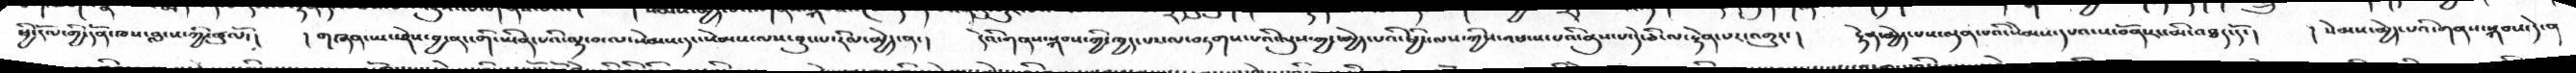ཕྱི་རོལ་གྱི་དོན་ཁས་བླངས་ཀྱི་ཚུལོ་།  །གཞན་ཡང་ཤེས་བྱ་ནང་གི་ཡིན་པའི་ལྟ་བ་ལ་སེམས་དང་སེམས་ལས་བྱུང་པ་རིམ་མྱེད་ན་།    དེའི་གནས་སྐབས་ཀྱི་ཁྱད་པར་ལ་བཏགས་པའི་ལུས་ཀྱང་མྱེད་པའི་ཕྱིར་ལས་ཀྱི་འཕངས་པའི་ནུས་པ་དེ་ཅི་ལ་རྟེན་པར་འགྱུར་།    རྟེན་མྱེད་པས་ལྡན་པའི་སེམས་དཔའ་ས་བོན་རང་མི་འཐད་དོ་།   ། སེམས་མྱེད་པའི་གནས་སྐབས་དེ་ན
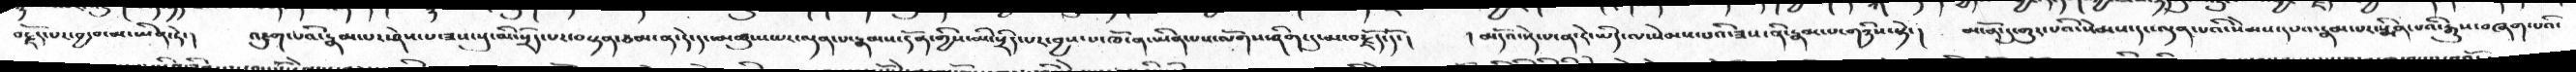བརྗོད་པར་བྱ་བ་མ་ཡིན་ཏེ་།   འཇུག་པའི་རྣམ་པར་ཤེས་པ་ཟས་སུ་མི་སྲིད་པར་བསྟན་ཙམ་ན་དེ་དང་མཚུངས་པར་ལྡན་པ་རྣམས་དོན་གྱིས་མི་སྲིད་པར་བྱས་པ་ཁོ་ན་ཡིན་པས་ལོགས་ཤིག་དུ་མ་བརྗོད་དོ་།   །མདོའ་སྡེ་པ་ན་རེ་ཡིད་ལ་སེམས་པའི་ཟས་ནི་རྣམ་པ་གཉིས་སྟེ་།  མངོན་དུ་གྱུར་པའི་སེམས་དང་ལྡན་པའི་སེམས་དཔའ་རྣམ་པར་སྨིན་པའི་རྒྱུས་བཞག་པའི་
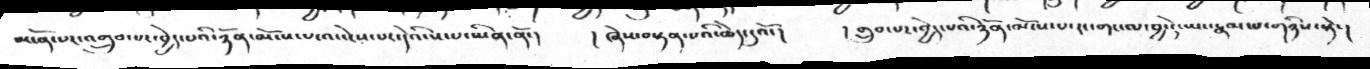མངོན་པར་འགྲུབ་པར་བྱེད་པའི་ཉོན་མོངས་པ་འང་ངེས་པར་དེའི་ས་པ་ཡིན་ནོ་།   །ཞེས་བསྟན་པའི་ཆེད་དུའོ་།   །གྲུབ་པར་བྱེད་པའི་ཉོན་མོངས་པ་རང་གང་ལ་བྱ་དེ་ཡང་རྣམ་པ་གཉིས་སྟེ་།
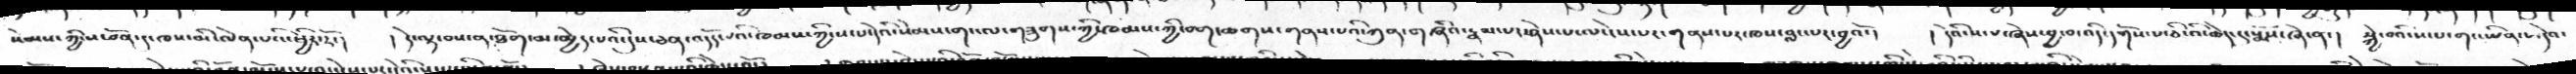སེམས་ཀྱི་ས་བོན་དུ་ཁས་མི་ལེན་པའི་ཕྱིར་རོ་།  །དེ་ལྟ་བས་ན་ཐོག་མ་མྱེད་པའི་དུས་ཅན་འདོད་པའི་ཁམས་ཀྱི་ས་པ་དེའི་སེམས་གང་ལ་གཟུགས་ཀྱི་ཁམས་ཀྱི་བག་ཆགས་གནས་པའི་ཀུན་གཞིའ་རྣམ་པར་ཤེས་པ་ལ་ངེས་པར་གནས་པར་ཁས་བླང་པར་བྱའོ་།  །དེའི་ས་པ་ཞེས་བྱ་བ་འདི་དགོས་པ་ཅི་འི་ཆེད་དུ་སྨོས་ཞེ་ན་།  སྐྱེ་བའི་ས་པ་གང་ཡིན་པ་དེའ
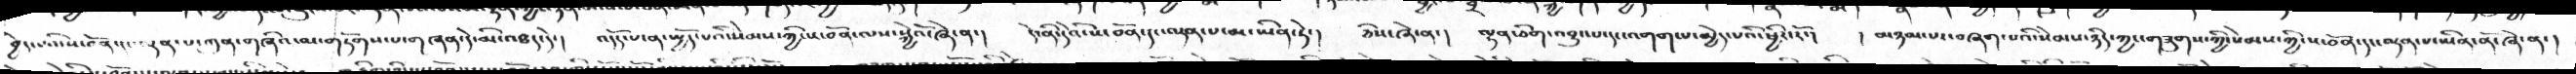བྱེད་པའི་ས་བོན་དང་ལྡན་པ་ཀུན་གཞིའ་མ་གཏོགས་་པ་གཞན་དེ་མི་འཐད་དེ་།   འདོད་པ་ན་སྤྱོད་པའི་སེམས་ཀྱི་ས་བོན་ལས་སྐྱེའོ་ཞེ་ན་།  དེ་ནི་དེའི་ས་བོན་དང་ལྡན་པ་མ་ཡིན་ཏེ་།  ཅིས་ཞེ་ན་།  ལྷན་ཅིག་འབྱུང་པ་དང་འགག་པ་མེད་པའི་ཕྱིར་རོ་།  །མཉམ་པར་བཞག་པའི་སེམས་ཉིད་ཀྱང་གཟུགས་ཀྱི་སེམས་ཀྱི་ས་བོན་དང་ལྡན་པ་ཡིན་ནོ་ཞེ་ན་།
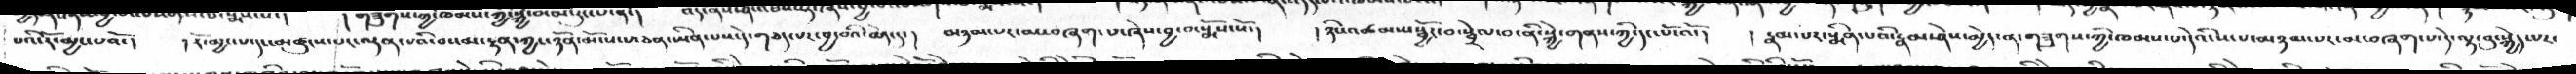པའི་རོ་མྱང་པའོ་།  །རོ་མྱང་པ་དང་མཚུངས་པར་ལྡན་པའི་བསམ་རྟན་ཀྱང་ཉོན་མོངས་པ་ཅན་ཡིན་པས་དེ་གཅད་པར་བྱ་བའི་ཆེད་དུ་།  མཉམ་པར་མ་བཞག་པ་ཞེས་བྱ་བ་སྨོས་སོ་།  །ཉིང་འཚམས་སྦྱོར་བ་སྦྲེལ་བ་ནི་སྐྱེ་གནས་ཀྱི་དང་པོ་འོ་།  །རྣམ་པར་སྨིན་པའི་རྣམ་ཤེས་མྱེད་ན་གཟུགས་ཀྱི་ཁམས་པ་དེའི་ས་པ་མཉམ་པར་མ་བཞག་པ་དེ་ལྟ་བུ་སྐྱེད་པར་
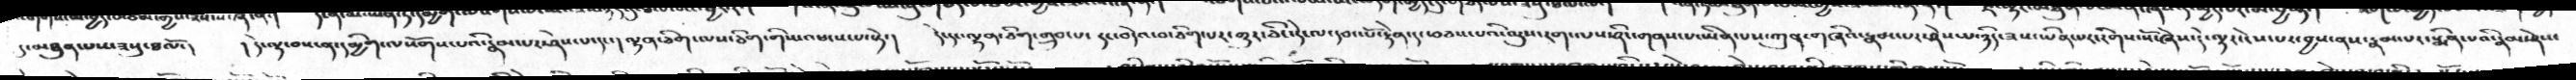དུ་མཐུན་པས་ཟསུ་ཐལོ་།   ། དེ་ལྟ་བས་ན་དམྱིག་ལསོགས་པའི་རྣམ་པར་ཤེས་པ་དང་། ལྷན་ཅིག་ལས་ཅིག་གིས་འཕངས་པ་སྟེ་།   དེ་དང་ལྷན་ཅིག་གྲུབ་པ་དང་བདེའ་བ་ཅིག་པར་གྱུར་ཅིང་དེ་ལ་དབང་པོ་རྟེན་དང་བཅས་པའི་ལུས་ངག་ལས་ཤིང་གནས་པ་ཡིན་པས་ཀུན་གཞིའ་རྣམ་པར་ཤེས་པ་ཉིད་ཟས་ཡིན་པར་རིགས་སོ་ཞེས་དེ་ལྟར་ངེས་པར་བྱས་ནས་རྣམ་པར་སྨིན་པའི་རྣམ་ཤེས་
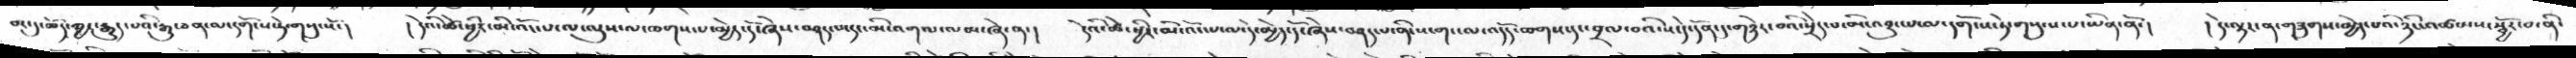བར་དུ་ཆོད་ཀྱང་རྒྱུད་པའི་རྒྱུ་ཅན་ལ་དགོངས་ཏེ་གསུངསོ་།    །དེའི་ཚེ་ཕྱིར་མི་འོང་པ་ལ་ལུས་ལ་ཆགས་པ་མྱེད་དོ་ཞེས་བཤད་པ་དང་མི་འགལ་ལམ་ཞེ་ན་།    དེའི་ཚེ་ཕྱིར་མི་འོང་པ་ལ་དེ་མྱེད་དོ་ཞེས་བཤད་པ་ནི་ས་གང་ལ་འདོད་ཆགས་དང་བྲལ་བའི་ས་དེ་དོན་དུ་གཉེར་བའི་སྲེད་པ་མི་འབྱུང་པ་ལ་དགོངས་ཏེ་གསུངས་པ་ཡིན་ནོ་།    ། དེ་ལྟར་ན་གཟུགས་མྱེད་པའི་ཉིང་འཚམས་སྦྱོར་བ་ནི་
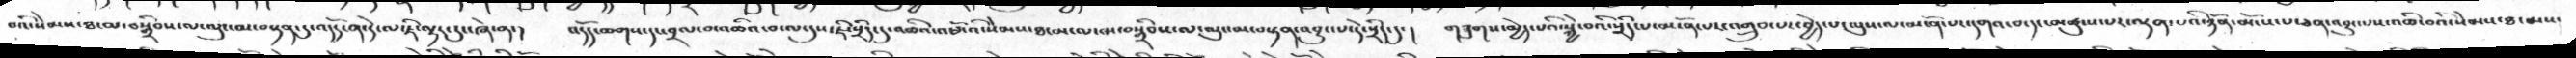བའི་སེམས་ཐ་མ་བསྒྲིབས་ལ་ལུང་མ་བསྟན་དུ་འདོད་ན་དེ་ལ་ཇི་ལྟར་རུང་ཞེ་ན་།    འདོད་ཆགས་དང་བྲལ་བ་འཆིའ་བ་ལ་དུས་ཇི་སྲིད་དུ་འཆིའ་འཕོངའི་སེམས་ཐ་མ་ལ་མ་བསྒྲིབས་ལ་ལུང་མ་བསྟན་འབྱུང་པ་དེ་སྲིད་དུ་།   གཟུགས་མྱེད་པའི་སྐྱེ་བའི་སྲིད་པ་མངོན་པར་འགྲུབ་པར་བྱེད་པ་ལུས་ལ་མངོན་པར་དགའ་བ་དང་མཚུངས་པར་ལྡན་པའི་ཉོན་མོངས་པ་ཅན་འབྱུང་པས་འཆི་བའི་སེམས་ཐ་མས་
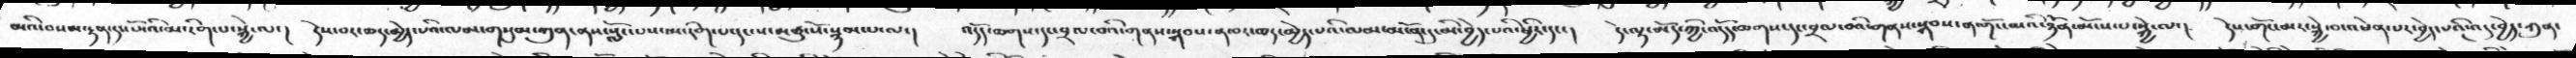མའི་བསམ་རྟན་དང་པོ་འི་མ་རིག་པ་སྐྱེ་ལ་།  དེས་བར་ཆད་མྱེད་པའི་ལམ་གསུམ་ཀུན་ནས་སློང་པས་མ་རིག་པ་དང་ས་མཚུངསོ་སྙམ་པ་ལ་།   འདོད་ཆགས་དང་བྲལ་བའི་གནས་སྐབས་ན་བར་ཆད་མྱེད་པའི་ལམ་མངོན་དུ་མི་བྱེད་པའི་ཕྱིར་དང་།   དེ་ལྟ་མོད་ཀྱི་འདོད་ཆགས་དང་བྲལ་བའི་གནས་སྐབས་ན་གོང་མའི་ཉོན་མོངས་པ་སྐྱེ་ལ་།    དེས་གོང་མར་སྐྱེ་བ་འཕེན་པར་བྱེད་པའི་འདུ་བྱེད་ཀུན་
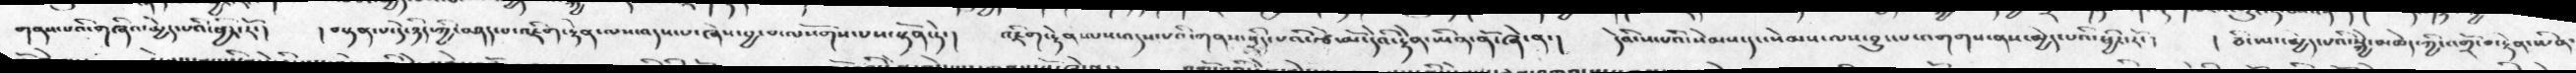གནས་པའི་གཞིའ་མྱེད་པའི་ཕྱིར་རོ་།  །བསྟན་པ་དེ་ཉིད་ཀྱི་བཤད་པ་འཇིག་རྟེན་ལས་འདས་པ་ཞེས་བྱ་་བ་ལསོགས་པས་སྟོན་ཏེ་།  འཇིག་རྟེན་ལས་འདས་པའི་གནས་སྲིད་པའི་རྩེ་མོ་དེའི་རྟེན་ཡིན་ནོ་ཞེ་ན་།  དེའི་ས་པའི་སེམས་དང་སེམས་ལས་བྱུང་པ་འགགས་ནས་མྱེད་པའི་ཕྱིར་རོ་།  །ཅི་ཡང་མྱེད་པའི་སྐྱེ་མཆེད་ཀྱི་འགྲོ་བ་རྟེན་ཡིན་
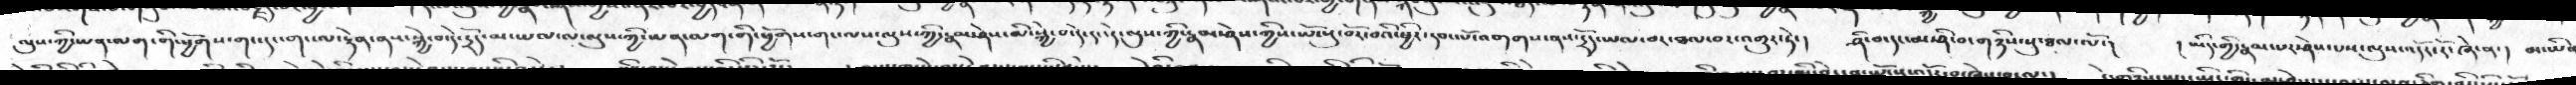ལུས་ཀྱི་ཡན་ལག་གི་ཕྱོགས་གང་དང་གང་ལ་རྟེན་ནས་སྐྱེ་བ་དེ་དྲོད་མ་ཡལ་ལ་ལུས་ཀྱི་ཡན་ལག་གི་ཕྱོགས་གང་ལས་ལུས་ཀྱི་རྣམ་ཤེས་མི་སྐྱེ་བ་དེ་དང་དེ་ལུས་ཀྱི་རྣམ་ཤེས་ཀྱིས་ཡོངསུ་བོར་བའི་ཕྱིར་དབང་པོ་འགགས་ནས་དྲོད་ཡལ་བར་ཐལ་བར་འགྱུར་ཏེ་།  ཤི་བ་དངད་མ་ཤི་བ་གཉིས་སུ་ཐལ་ལོ་།   །ཡིད་གྱི་རྣམ་པར་ཤེས་པས་ལུས་འདོར་རོ་ཞེ་ན་།  མ་ཡིས
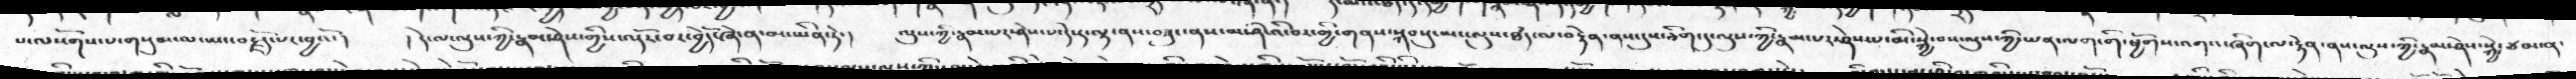པ་ལསོགས་པ་གསུམ་ལ་ཡང་བརྗོད་པར་བྱའོ་།    །དེ་ལ་ལུས་ཀྱི་རྣམ་ཤེས་ཀྱིས་འདོར་བར་བྱེདོ་ཞེ་ན་མ་ཡིན་ཏེ་།   ལུས་ཀྱི་རྣམ་པར་ཤེས་པ་དེ་ད་ལྟ་ནས་བཟུང་ནས་མ་ཤི་འི་བར་གྱི་གནས་སྐབསུ་མ་ལུས་ཐཾད་ལ་བརྟེན་ནས་དུས་ཅིག་དུ་ལུས་ཀྱི་རྣམ་པར་ཤེས་པ་མི་སྐྱེ་བས་ལུས་ཀྱི་ཡན་ལག་གི་ཕྱོགས་འགའ་ཞིག་ལ་རྟེན་ནས་ལུས་ཀྱི་རྣམ་ཤེས་སྐྱེ་ཙམ་ན་
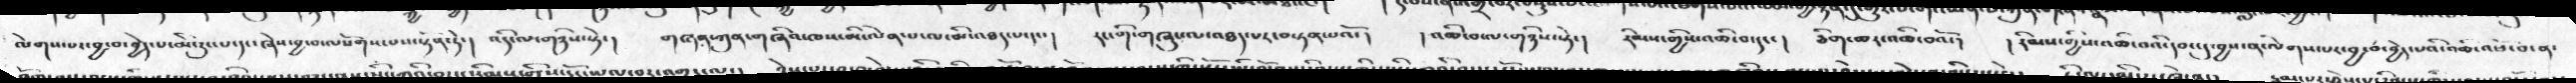ལེགས་པར་བྱ་བ་བྱེད་པ་མི་རུང་པ་དང་ཞེས་བྱ་བ་ལསོགས་པས་སྟོན་ཏེ་།  འདི་ལ་གཉིས་སྟེ་།  གཞན་ཀུན་གཞིའ་ཁས་མི་ལེན་པ་ལ་མི་འཐད་པ་དང་།  རང་གི་གཞུང་ལ་འཐད་པར་བསྟན་པའོ་།  །འཆི་བ་ལ་གཉིས་སྟེ་།  རིམས་གྱིས་འཆི་བ་དང་།   ཅིག་ཆར་འཆི་བའོ་།   །རིམས་གྱིས་འཆི་བའི་དབང་དུ་བྱས་ན་ལེགས་པར་བྱ་བ་བྱེད་པའི་འཆི་འཕོ་བ་ན་
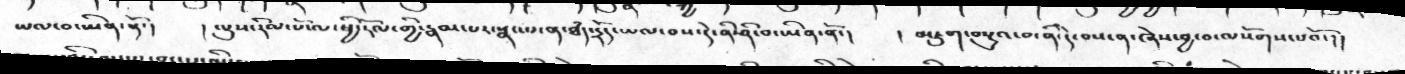ཡལ་བ་ཡིན་ནོ་།    །ལུས་རིམ་པོ་ལ་ཕྱི་རོལ་གྱི་རྣམ་པར་སྣང་པ་ན་ཐཾད་དྲོད་ཡལ་བས་དེ་ནི་ཤི་བ་ཡིན་ནོ་།   ། འཇུག་བསྡུའ་བ་ནི་དེ་བས་ན་ཞེས་བྱ་བ་ལསོགས་པའོ་།།
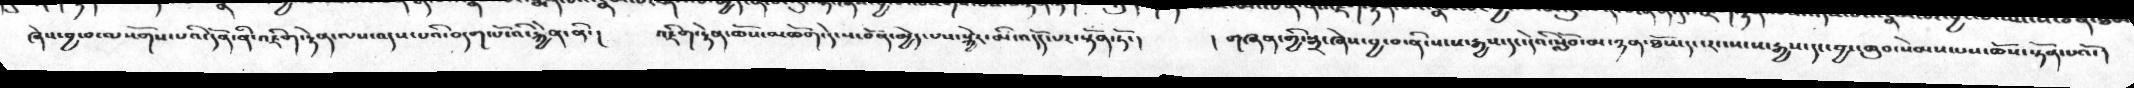ཞེས་བྱ་བ་ལསོགས་པའི་དོན་ནི་འཇིག་རྟེན་ལས་འདས་པའི་བདག་པོ་འི་རྐྱེན་ནི་།    འཇིག་རྟེན་ཆོས་མཆོག་དེ་ས་བོན་མྱེད་པས་སྐྱེར་མི་འདོད་པར་སྟོན་ཏོ་།    །གཞན་གྱི་སྒྲ་ཞེས་བྱ་བ་ནི་སངས་རྒྱས་དང་དེའི་སློབ་མ་ཉན་ཐོས་དང་རང་སངས་རྒྱས་དང་བྱང་ཆུབ་སེམས་པས་ཆོས་སྟོན་པའོ་།
